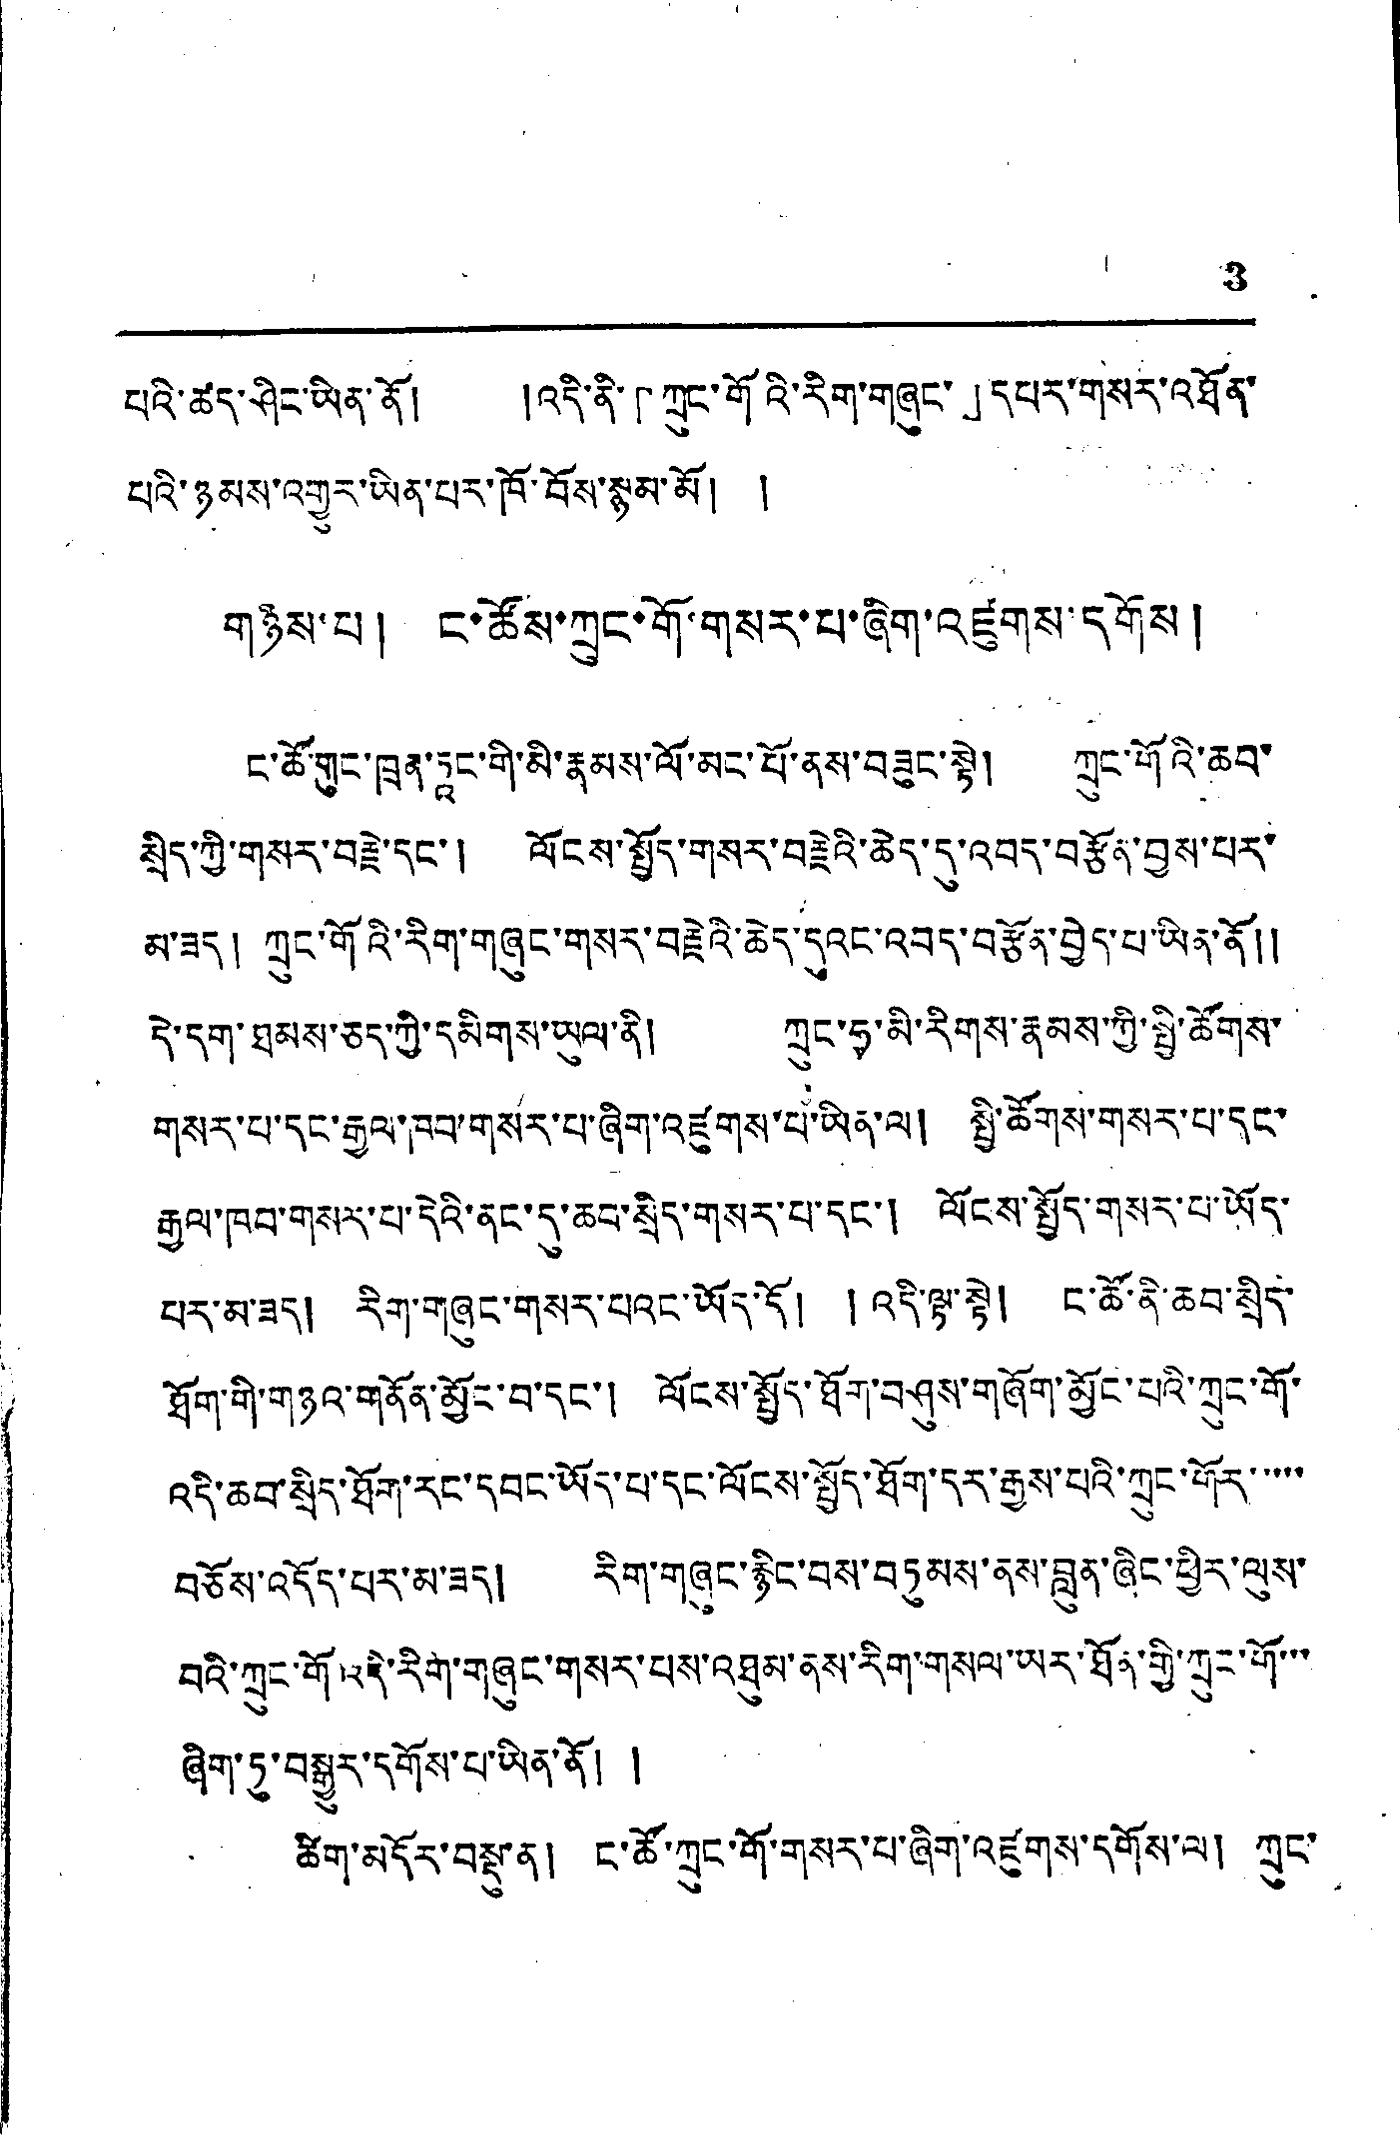3
པའི་ཚད་ཤིང་ཡིན་ནོ། །འདི་ནི་「ཀྲུང་གོའི་རིག་གཞུང་」དཔར་གསར་འཐོན་
པའི་ཉམས་འགྱུར་ཡིན་པར་ཁོ་བོས་སྙམ་མོ། །
གཉིས་པ། ང་ཚོས་ཀྲུང་གོ་གསར་པ་ཞིག་འཛུགས་དགོས།
ང་ཚོ་གུང་ཁྲན་ཏཱང་གི་མི་རྣམས་ལོ་མང་པོ་ནས་བཟུང་སྟེ། ཀྲུང་གོའི་ཆབ་
སྲིད་ཀྱི་གསར་བརྗེ་དང་། ལོངས་སྤྱོད་གསར་བརྗེའི་ཆེད་དུ་འབད་བརྩོན་བྱས་པར་
མ་ཟད། ཀྲུང་གོའི་རིག་གཞུང་གསར་བརྗེའི་ཆེད་དུའང་འབད་བརྩོན་བྱེད་པ་ཡིན་ནོ།།
དེ་དག་ཐམས་ཅད་ཀྱི་དམིགས་ཡུལ་ནི། ཀྲུང་ཧྭ་མི་རིགས་རྣམས་ཀྱི་སྤྱི་ཚོགས་
གསར་པ་དང་རྒྱལ་བབ་གསར་པ་ཞིག་འཛུགས་པ་ཡིན་ལ། སྤྱི་ཚོགས་གསར་པ་དང་།
རྒྱལ་ཁབ་གསར་པ་དེའི་ནང་དུ་ཆབ་སྲིད་གསར་པ་དང་། ལོངས་སྤྱོད་གསར་པ་ཡོད་
པར་མ་ཟད། རིག་གཞུང་གསར་པའང་ཡོར་དོ། །འདི་ལྟ་སྟེ། ང་ཚོ་ནི་ཆབ་སྲིད་
ཐོག་གི་གཉའ་གནོན་མྱོང་བ་དང་། ལོངས་སྤྱོད་ཐོག་བཤུས་གཞོག་མྱོང་པའི་ཀྲུང་གོ་
འདི་ཆབ་སྲིད་ཐོག་རང་དབང་ཡོད་པ་དང་ལོངས་སྤྱོད་ཐོག་དར་རྒྱས་པའི་ཀྲུང་གོར་་་་་
བཅོས་འདོད་པར་མ་ཟད། རིག་གཞུང་རྙིང་བས་བཏུམས་ནས་བླུན་ཞིང་ཕྱིར་ལུས་
བའི་ཀྲུང་གོའདི་རིག་གཞུང་གསར་པས་འཐུམ་ནས་རིག་གསལ་ཡར་ཐོན་གྱི་ཀྲུང་གོ་་་
ཞིག་ཏུ་བསྒྱུར་དགོས་པ་ཡིན་ནོ། །
ཚིག་མདོར་བསྟུ་ན། ང་ཚོ་ཀྲུང་གོ་གསར་པ་ཞིག་འཛུགས་དགོས་ལ། ཀྲུང་
